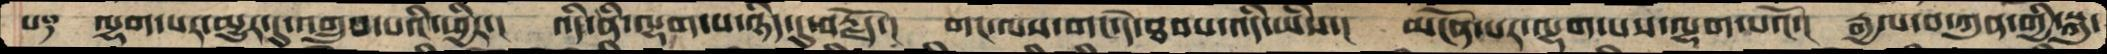པ༑  ལྷག་པར་མྱུར་དུ་འགྲུབ་པའི་ཕྱིར་།  འདི་ནི་ལྷག་པ་ཉིད་དུ་བརྗོད་།  གང་ལས་གང་དེ་ཐབས་འདི་ཡིས་།  མངོན་པར་ལྷག་པས་ལྷག་པའོ་།  རྒྱལ་བ་ཀུན་གྱི་སྐུ་
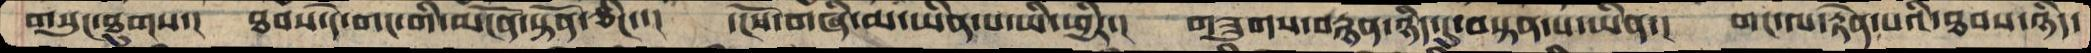གསུང་ཐུགས་།  ཐབས་དེ་གང་གི་མངོན་སྟོན་ཅིང་་།  དངོས་གཞི་མ་ཡིན་པ་ཡི་ཕྱིར་།  གཟུགས་བརྙན་ཉིད་དུ་བསྟན་པ་ཡིན་།  གང་ལ་རྟེན་པའི་ཐབས་ཉིད་
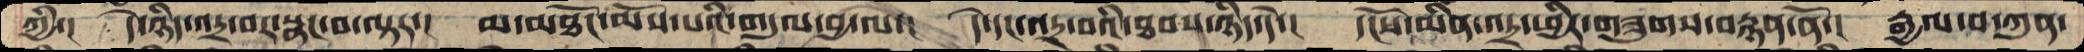ཀྱི་།   དེ་ཉིད་འདྲ་བར་སྣང་བ་ལྟར་།  མ་མཐོང་མོས་པའི་གདུལ་བྱ་ལ་།  དེ་དང་འདྲ་བའི་ཐབས་ཉིད་དེ་།  དངོས་མིན་འདྲ་ཕྱིར་གཟུགས་བརྙན་ནོ་།  རྒྱལ་བ་ཀུན་
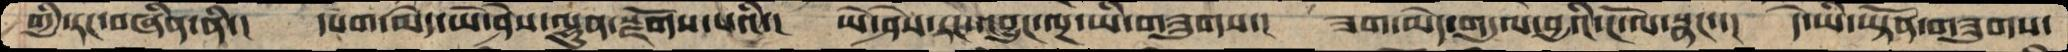གྱི་རང་བཞིན་ནི་།  དཔག་མེད་ཡེ་ཤེས་ལྷུན་སྫོགས་པའི་།  ཡེ་ཤེས་རང་འབྱུང་ལྔ་ཡི་གཟུགས་།  ཟག་མེད་གདུལ་བྱའི་ངོ་ལ་སྣང་་།  དེ་ཡི་ཡྟོན་གཟུགས་
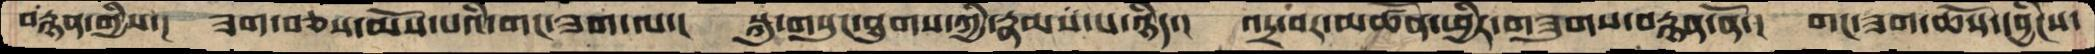བརྙན་གྱིས་།  ཟག་བཅས་མོས་པའི་གང་ཟག་ལ་།  སྐུ་གསུང་ཐུགས་ཀྱི་རྣམས་པ་ཉིད་།  འདྲ་བར་མཚོན་ཕྱིར་གཟུགས་བརྙན་ནོ་།  གང་ཟག་ཆོས་དབྱིངས་
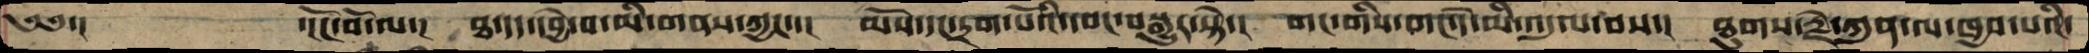༄༅་།      ་།ངོ་བོ་ལ་།  ཐ་དད་དབྱེ་བ་མི་གནས་ཀྱང་་།  མོས་དང་དྲག་པོའི་དབང་བསྒྱུར་སྟེ་།  གང་གིས་གང་དེ་མི་འདུལ་བས་།  ཐུགས་རྗེ་ཀུན་ལ་ཁྱབ་པའི་
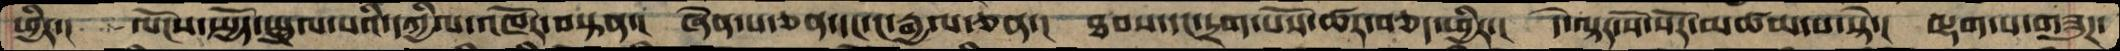ཕྱིར་།  ལོངས་སྤྱོད་སྤྲུལ་པའི་དཀྱིལ་འཁོར་བསྟན་།  ཞེན་པ་ཅན་དང་ང་རྒྱལ་ཅན་།  ཐབས་དང་དྲག་པོས་ཚར་བཅད་ཕྱིར་།  དེ་ལྟར་སོ་སོར་མཚམ་པ་སྟེ་།  ལྷག་པ་གཟུཌ་
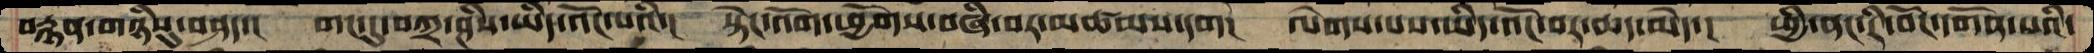བརྙན་གཉིསུ་བཤད་།  གང་དུ་བཀྲ་ཤིས་ཡིད་འོང་པའི་།  སྟེང་འོག་ཕྱོགས་བཞི་བར་མཚམས་དག།  ལེགས་པས་ཡིད་འོང་བར་ཆད་མེད་།  ཕྱི་ནང་རི་བོང་དགོན་པའི་
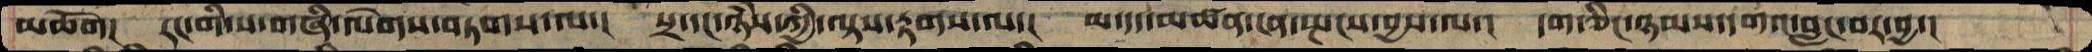མཆོག།  རང་གི་ས་གཞི་ལེགས་བཏགས་ལ་།  སྲ་དང་ཉཾས་ཀྱི་ལྟས་རྟགས་ལ་།  མ་དད་མཚན་ངན་སྤངས་བྱས་ལ་།  དག་ཅིང་ཉམས་དགའ་བླང་བར་བྱ་།
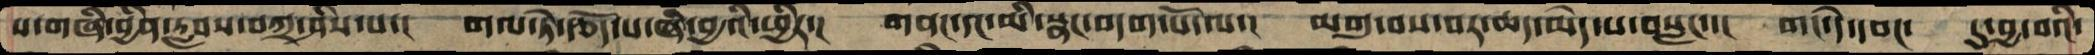ས་གཞི་བྱིན་རླབས་བཀྲ་ཤིས་པ་།  གལ་ཏེ་རྩོད་པ་ཞི་བྱའི་ཕྱིར་།  གནང་དང་མི་སྣང་བདག་པོ་ལ་།  མགུ་བས་བར་ཆད་མེད་པ་བསླང་་།  གང་དེ་དབང་  དུ་བྱ་བའི་
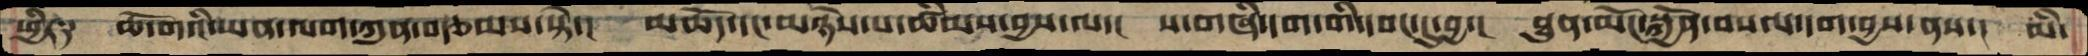ཕྱིར༑   ཆོ་གའི་ཡན་ལག་ཀུན་བརྩམས་སྟེ་།  མཆོད་དང་མཉེས་པ་ཚིམས་བྱས་ལ་།  ས་གཞི་དག་པའི་དབང་དུ་བྱ་།  ཐུན་མོང་སྐྱོན་བསལ་དག་བྱས་ནས་།  མི་
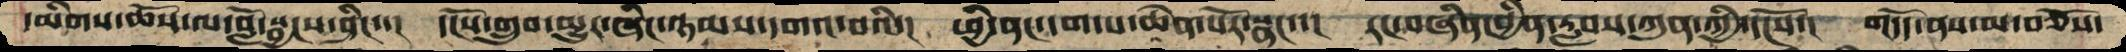དམིགས་ཆོས་ལ་བློ་སྦྱངས་ཤིང་་།  དངོས་གྲུབ་མྱུར་ཞིང་ཉམས་དགའ་བའི་།  ཕྱི་ནང་དག་པ་ཆེན་པོར་སྣང་་།  རང་བཞིན་བྱིན་རླབས་ཀུན་ཀྱི་དངོས་།  གདོད་ནས་མ་བཅོས་
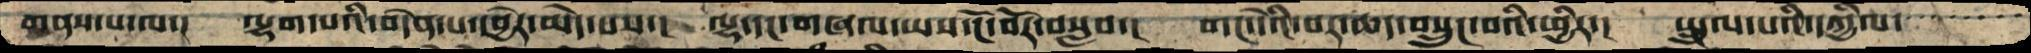གནས་པ་ལ་།  ལྷག་པའི་བདེན་པ་དབྱེར་མེད་པས་།  ལྷ་དང་གཞལ་ཡས་ངོ་བོར་བསླབ་།  གང་དེའི་བར་ཆད་བསྲུང་བའི་ཕྱིར་།  སྤྲུལ་པའི་དཀྱིལ་་་་་་་་་
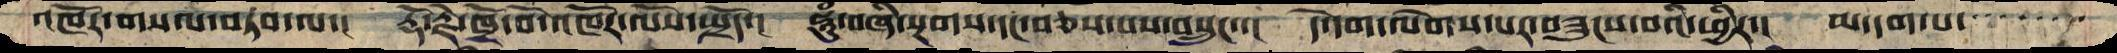འཁོར་གསལ་བཏབ་ལ་།  རྡོ་རྗེ་ཁྲོ་བོ་འཁོར་ལོས་སྤྲོད་།   ཧཱུཾ་བཞི་སྔགས་དང་བཅས་པས་བསྲུང་་།  དེ་དག་ལེགས་པར་བཟུངས་བའི་ཕྱིར་།  མ་དག་པ་་་་་་་
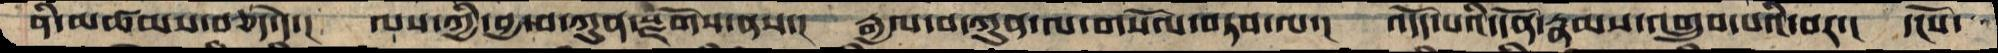ནི་མཚམས་བཅད་དེ་།  ལས་ཀྱི་བྱ་བ་ཀུན་སྫོགས་ནས་།  རྒྱལ་བ་ཀུན་ལ་གསོལ་བཏབ་ལ་།  འདོད་པའི་དོན་རྣམས་འགྲུབ་པའི་བར་།  དངོས་
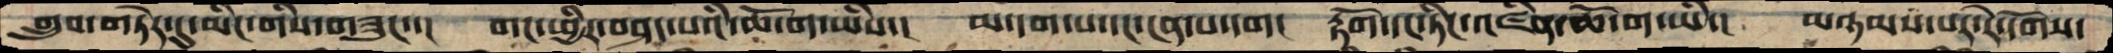གྲུབ་གཏེར་དུ་མིང་གིས་གཟུང་་།  གང་ཕྱིར་བཤད་པའི་ཆོ་ག་ཡིས་།  མ་དག་པ་དང་ངན་པ་དག།   རྟོག་དང་ཏིང་འཛིན་ཆོ་ག་ཡི་།  མཉམས་པར་རེ་དོགས་
